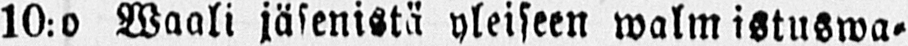10:o Waali jäsenistä yleiseen walmistuswa-
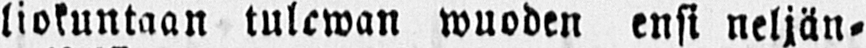liokuntaan tulewan wuoden ensi neljän-
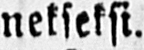nekseksi.
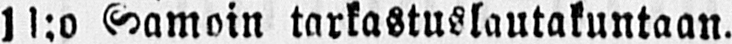11:o Samoin tarkastuslautakuntaan.
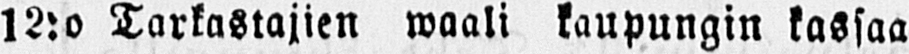12:o Tarkastajien waali kaupungin kassaa
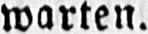warten.
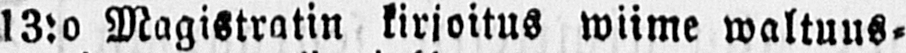l3:o Magistratin kirjoitus wiime waltuus-
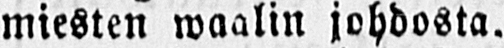miesten waalin johdosta.
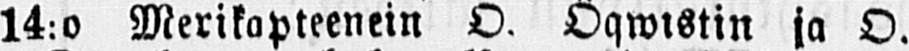14:o Merikapteenein O. Öqwistin ja O.
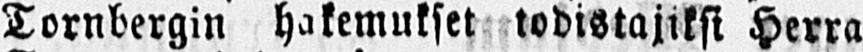Tornbergin hakemukset todistajiksi Herra
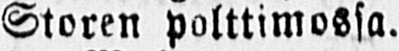Storen polttimossa.
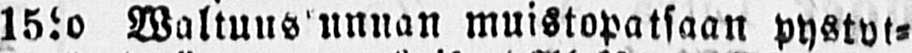15:o Waltuus unuan muistopatsaan pystyt-
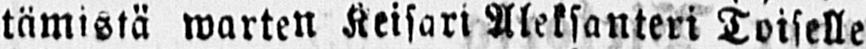tämistä warten Keisari Aleksanteri Toiselle
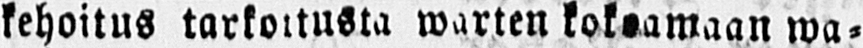kehoitus tarkoitusta warten kokoamaan wa-
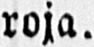roja
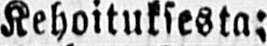Kehoituksesta;
